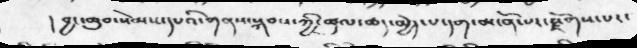། བྱང་ཆུབ་སེམས་དཔའི་གནས་སྐབས་ཀྱི་ཚུལ་ཆད་མྱེད་པ་དག་མངོན་པར་རྫོགས་པར་
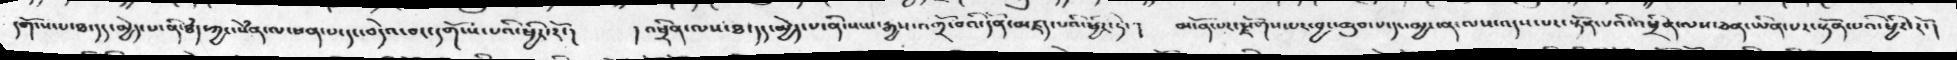དགོངས་པ་ཐ་དད་མྱེད་པ་ནི་ཐཾད་ཀྱང་སེཾན་ལ་ཕན་པ་དང་བདེའ་བར་དགོངས་པའི་ཕྱིར་རོ་།     ། འཕྲིན་ལས་ཐ་དད་མྱེད་པ་ནི་སངས་རྒྱས་འགྲོ་བའི་དོན་མཛད་པའི་ཕྱིར་ཏེ་།      མངོན་པར་རྫོགས་པར་བྱང་ཆུབ་པ་དང་མྱ་ངན་ལས་འདས་པར་སྟོན་པའི་འཕྲིན་ལས་ཅན་ཡིན་པར་སྟོན་པའི་ཕྱིར་རོ་།
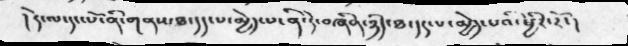། དེ་ལ་དང་པོ་ནི་གནས་ཐ་དད་པ་མྱེད་པ་ནི་དེ་བཞིན་ཉིད་ཐ་དད་པ་མྱེད་པའི་ཕྱིར་རོ་།
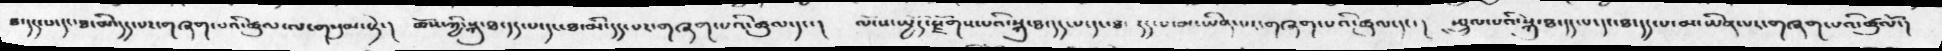ཐ་དད་པ་དང་ཐ་མི་དད་པར་གཞག་པའི་ཚུལ་ལ་གསུམ་སྟེ་།   ཆོས་ཀྱི་སྐུ་ཐ་དད་པ་དང་ཐ་མི་དད་པར་གཞག་པའི་ཚུལ་དང་།    ལོངས་སྤྱོད་རྫོགས་པའི་སྐུ་ཐ་དད་པ་དང་ཐ་ དད་པ་མ་ཡིན་པར་གཞག་པའི་ཚུལ་དང་།   སྤྲུལ་པའི་སྐུ་ཐ་དད་པ་དང་ཐ་དད་པ་མ་ཡིན་པར་གཞག་པའི་ཚུལོ་།
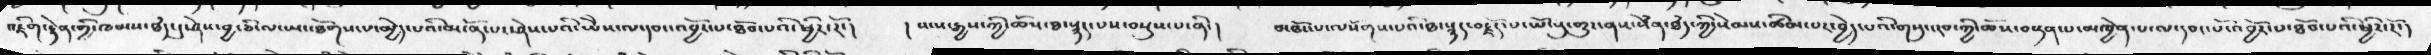འཇིག་རྟེན་གྱི་ཁམས་ཐྃད་དུ་ཤེས་བྱ་ཅི་ལ་ཡང་ཐོགས་པ་མྱེད་པའི་མངོན་པར་ཤེས་པའི་ཡེེས་ལ་དབང་འབྱོར་པ་ཐོབ་པའི་ཕྱིར་རོ་།  ། སངས་རྒྱས་ཀྱི་ཆོས་ཐ་སྙད་པས་བསྡུས་པ་ནི་།  མཐོང་པ་ལསོགས་པའི་ཐ་སྙད་བརྗོད་པ་ཡོངསུ་གྱུར་ནས་སེཾན་ཐཾད་ཀྱི་སེམས་ཚིམ་པར་བྱེད་པའི་གསུང་རབ་ཀྱི་ཆོས་བསྟན་པ་མཁྱེན་པ་ལ་དབང་པོ་འབྱོར་པ་ཐོབ་པའི་ཕྱིར་རོ་།
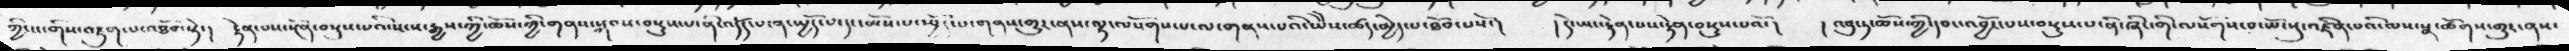ཀྱི་ས་གིས་འཇུག་པ་འཐོབ་སྟེ་།  རྟེན་པས་སྔོན་བསྡུས་པའི་སངས་རྒྱས་ཀྱི་ཆོས་ཀྱི་གནས་སྐབས་བསྡུས་པ་ནི་འདོད་པ་ན་སྤྱོད་པ་དང་མོས་པ་སྤྱོད་པ་གནས་གྱུར་ནས་ལྷ་ལསོགས་པ་ལ་གནས་པའི་ཡེེས་ཚད་མྱེད་པ་ཐོབ་པསོ་།  ། དེ་ཡང་རྟེན་པས་རྟེན་བསྡུས་པའོ་།  ། འབུ་ཏ་ཆོས་ཀྱི་དབང་འབྱོར་པས་བསྡུས་པ་ནི་ཞིང་གི་ལསོགས་པ་ཡོངསུ་འཛིན་པའི་ལས་སྣ་ཚོགས་གྱུར་ནས་
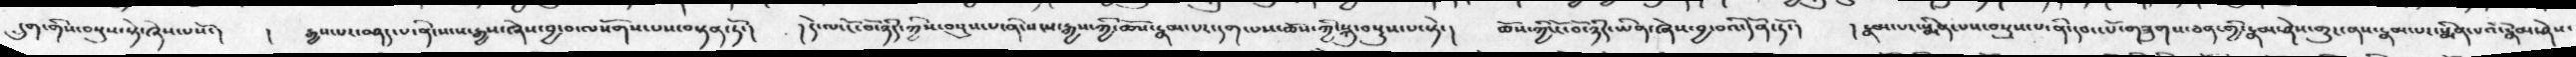དྲུག་གིས་བསྡུས་སྟེ་ཞེས་པསོ་།   །  རྒྱས་པར་བཤད་པ་ནི་སངས་རྒྱས་ཞེས་བྱ་བ་ལསོགས་པས་བསྟན་ཏོ་།  །དེ་ལ་ངོ་བོ་ཉིད་ཀྱིས་བསྡུས་པ་ནི་སངས་རྒྱས་ཀྱི་ཆོས་རྣམ་པར་དག་པས་ཆོས་ཀྱི་སྐུ་བསྡུས་པ་སྟེ་།   ཆོས་ཀྱི་ངོ་བོ་ཉིད་ཡིན་ཞེས་བྱ་བའི་དོན་ཏོ་།   ། རྣམ་པར་སྨིན་པས་བསྡུས་པ་ནི་དབང་པོ་གཟུགས་ཅན་གྱི་རྣམ་ཤེས་གྱུར་ནས་རྣམ་པར་སྨིན་པའི་རྣམ་ཤེས་
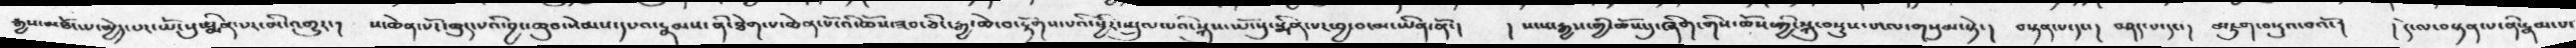རྒྱས་མཐོང་པ་མྱེད་པར་ཡོངསུ་སྨིན་པར་མི་འགྱུར་།   ས་ཆེན་པོར་ཆུད་པའི་བྱང་ཆུབ་སེམས་དཔའ་རྣམས་ནི་ཐེག་པ་ཆེན་པོ་འི་ཆོས་ཟབ་ཅིང་རྒྱ་ཆེ་བ་རྟོགས་པའི་ཕྱིར་སྤྲུལ་པའི་སྐུས་ཡོངསུ་སྨིན་པར་བྱ་བ་མ་ཡིན་ནོ་།   །སངས་རྒྱས་གྱི་ཆོས་དུ་ཞིག་གིས་ཆོས་གྱི་སྐུབསྡུས་པ་ལ་གསུམ་སྟེ་།  བསྟན་པ་དང་།  བཤད་པ་དང་།  མཇུག་བསྡུའ་བའོ་།   །དེ་ལ་བསྟན་པ་ནི་རྣམ་པར
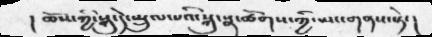། ཆོས་ཀྱི་སྐུ་དེ་སྤྲུལ་པའི་སྐུ་སྣ་ཚོགས་་ཀྱི་ཡང་གནས་སྟེ་།
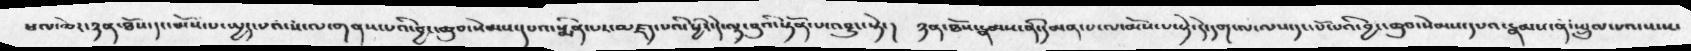ཕལ་ཆེར་ཉན་ཐོས་དང་མོས་པ་སྤྱད་པའི་ས་ལ་གནས་པའི་བྱ་ཆུབ་སེམས་དཔའ་སྨིན་པར་མཛད་པའི་ཕྱིར་དེ་ལྟ་བུའི་སྟོན་པ་འབྱུང་སྟེ་།  ཉན་ཐོས་རྣམས་ནི་དམན་པ་ལ་མོས་པ་སྟེ་དེ་དག་ལ་ལས་དང་པོ་པའི་བྱང་ཆུབ་སེམས་དཔའ་རྣམས་ནི་སྤྲུལ་པའ་སངས་
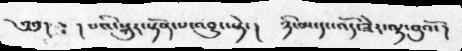༄༅།  ༴ །པའི་སྐུར་སྟོན་པ་འབྱུང་སྟེ་།  ཉི་མ་དང་འོད་ཟེར་ལྟ་བུའོ་།
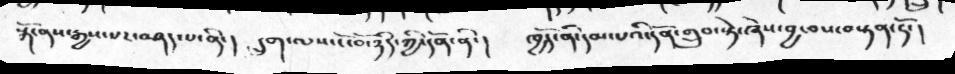སྒོ་ནས་རྒྱས་པར་བཤད་པ་ནི་།  དྲུག་ལས་ངོ་བོ་ཉིད་ཀྱི་དོན་ནི་།  ཁྱོད་ནི་དམ་པའི་དོན་གྲུབ་སྟེ་ཞེས་བྱ་བས་བསྟན་ཏོ་།
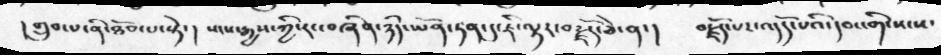། གྲུབ་པ་ནི་ཐོབ་པ་སྟེ་།  སངས་རྒྱས་ཀྱི་རང་བཞིན་ཉིད་ཡོན་ཏན་དུ་ཇི་ལྟར་བརྗོད་ཅེ་ན་།  བརྗོད་པར་འདོད་པའི་དབང་གི་སངས་
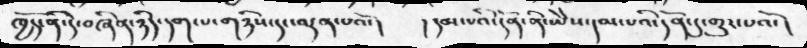ཁྱོད་ནི་དེ་བཞིན་ཉིད་དག་པ་གཉིས་དང་ལྡན་པའོ་།  ། དམ་པའི་དོན་ནི་ཡེེས་དམ་པའི་དོན་དུ་གྱུར་པའོ་།
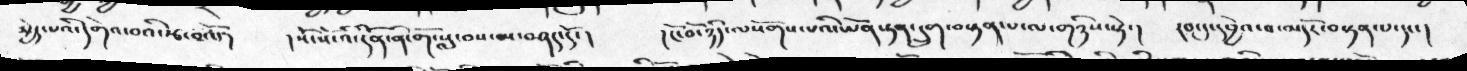མྱེད་པའི་དགེའ་བའི་རྩ་བའོ་།  ། སོ་སོ་འི་དོན་ནི་གོ་སླ་བས་མ་བཤད་དོ་།  ། ངོ་བོ་ཉིད་ལསོགས་པའི་ཡོན་ཏན་དྲུག་བསྟན་པ་ལ་གཉིས་སྟེ་།  རབ་དུ་དབྱེ་བ་མདོར་བསྟན་པ་དང་།
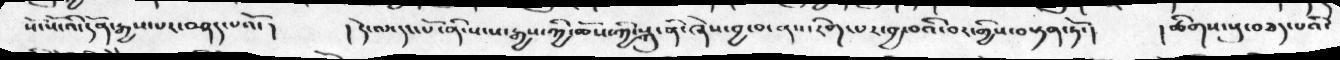སོ་སོ་འི་དོན་རྒྱས་པར་བཤད་པའོ་།  ། དེ་ལ་དང་པོ་ནི་སངས་རྒྱས་ཀྱི་ཆོས་ཀྱི་སྐུ་ནི་ཞེས་བྱ་བ་ནས་རེག་པར་བྱ་བའི་བར་གྱིས་བསྟན་ཏོ་།  ། ཚིགས་སུ་བཅད་པའི་
